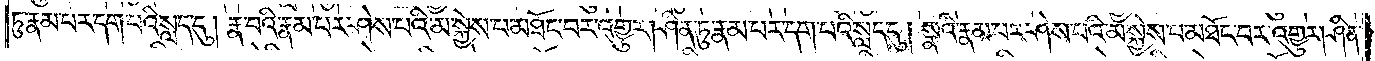ཏུ་རྣམ་པར་དག་པའི་སླད་དུ། རྣ་བའི་རྣམ་པར་ཤེས་པའི་མ་སྐྱེས་པ་མཐོང་བར་འགྱུར། ཤིན་ཏུ་རྣམ་པར་དག་པའི་སླད་དུ། སྣའི་རྣམ་པར་ཤེས་པའི་མ་སྐྱེས་པ་མཐོང་བར་འགྱུར། ཤིན་
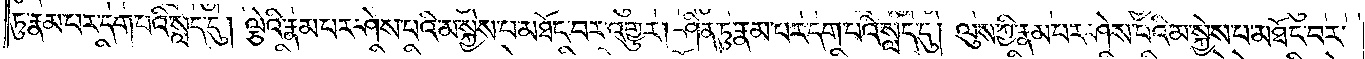ཏུ་རྣམ་པར་དག་པའི་སླད་དུ། ལྕེའི་རྣམ་པར་ཤེས་པའི་མ་སྐྱེས་པ་མཐོང་བར་འགྱུར། ཤིན་ཏུ་རྣམ་པར་དག་པའི་སླད་དུ། ལུས་ཀྱི་རྣམ་པར་ཤེས་པའི་མ་སྐྱེས་པ་མཐོང་བར་
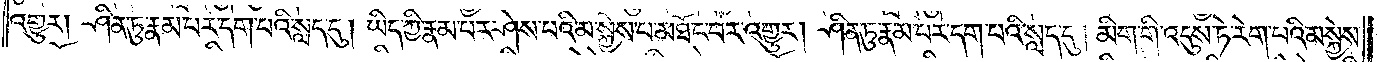འགྱུར། ཤིན་ཏུ་རྣམ་པར་དག་པའི་སླད་དུ། ཡིད་ཀྱི་རྣམ་པར་ཤེས་པའི་མ་སྐྱེས་པ་མཐོང་བར་འགྱུར། ཤིན་ཏུ་རྣམ་པར་དག་པའི་སླད་དུ། མིག་གི་འདུས་ཏེ་རེག་པའི་མ་སྐྱེས་
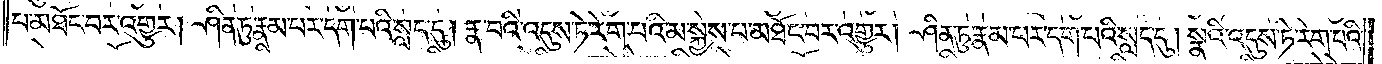པ་མཐོང་བར་འགྱུར། ཤིན་ཏུ་རྣམ་པར་དག་པའི་སླད་དུ། རྣ་བའི་འདུས་ཏེ་རེག་པའི་མ་སྐྱེས་པ་མཐོང་བར་འགྱུར། ཤིན་ཏུ་རྣམ་པར་དག་པའི་སླད་དུ། སྣའི་འདུས་ཏེ་རེག་པའི་
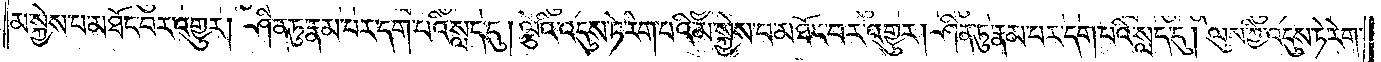མ་སྐྱེས་པ་མཐོང་བར་འགྱུར། ཤིན་ཏུ་རྣམ་པར་དག་པའི་སླད་དུ། ལྕེའི་འདུས་ཏེ་རེག་པའི་མ་སྐྱེས་པ་མཐོང་བར་འགྱུར། ཤིན་ཏུ་རྣམ་པར་དག་པའི་སླད་དུ། ལུས་ཀྱི་འདུས་ཏེ་རེག་
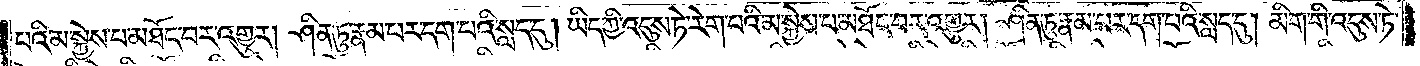པའི་མ་སྐྱེས་པ་མཐོང་བར་འགྱུར། ཤིན་ཏུ་རྣམ་པར་དག་པའི་སླད་དུ། ཡིད་ཀྱི་འདུས་ཏེ་རེག་པའི་མ་སྐྱེས་པ་མཐོང་བར་འགྱུར། ཤིན་ཏུ་རྣམ་པར་དག་པའི་སླད་དུ། མིག་གི་འདུས་ཏེ་
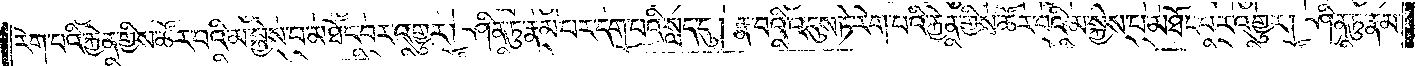རེག་པའི་རྐྱེན་གྱིས་ཚོར་བའི་མ་སྐྱེས་པ་མཐོང་བར་འགྱུར། ཤིན་ཏུ་རྣམ་པར་དག་པའི་སླད་དུ། རྣ་བའི་འདུས་ཏེ་རེག་པའི་རྐྱེན་གྱིས་ཚོར་བའི་མ་སྐྱེས་པ་མཐོང་བར་འགྱུར། ཤིན་ཏུ་རྣམ་
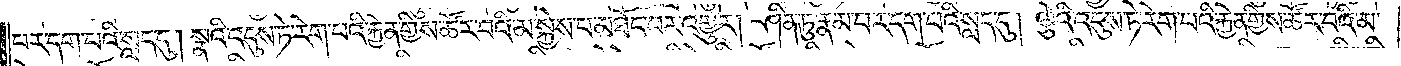པར་དག་པའི་སླད་དུ། སྣའི་འདུས་ཏེ་རེག་པའི་རྐྱེན་གྱིས་ཚོར་བའི་མ་སྐྱེས་པ་མཐོང་བར་འགྱུར། ཤིན་ཏུ་རྣམ་པར་དག་པའི་སླད་དུ། ལྕེའི་འདུས་ཏེ་རེག་པའི་རྐྱེན་གྱིས་ཚོར་བའི་མ་
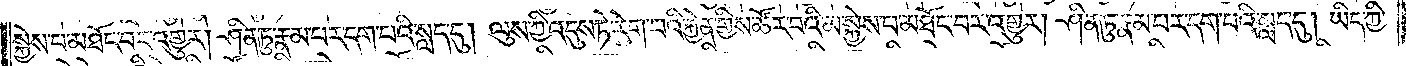སྐྱེས་པ་མཐོང་བར་འགྱུར། ཤིན་ཏུ་རྣམ་པར་དག་པའི་སླད་དུ། ལུས་ཀྱི་འདུས་ཏེ་རེག་པའི་རྐྱེན་གྱིས་ཚོར་བའི་མ་སྐྱེས་པ་མཐོང་བར་འགྱུར། ཤིན་ཏུ་རྣམ་པར་དག་པའི་སླད་དུ། ཡིད་ཀྱི་
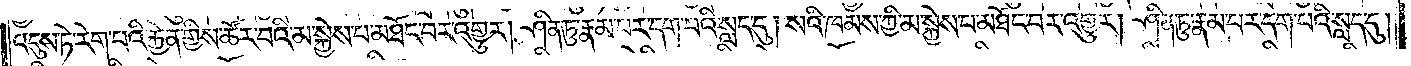འདུས་ཏེ་རེག་པའི་རྐྱེན་གྱིས་ཚོར་བའི་མ་སྐྱེས་པ་མཐོང་བར་འགྱུར། ཤིན་ཏུ་རྣམ་པར་དག་པའི་སླད་དུ། སའི་ཁམས་ཀྱི་མ་སྐྱེས་པ་མཐོང་བར་འགྱུར། ཤིན་ཏུ་རྣམ་པར་དག་པའི་སླད་དུ།
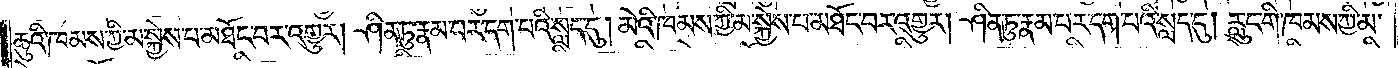ཆུའི་ཁམས་ཀྱི་མ་སྐྱེས་པ་མཐོང་བར་འགྱུར། ཤིན་ཏུ་རྣམ་པར་དག་པའི་སླད་དུ། མེའི་ཁམས་ཀྱི་མ་སྐྱེས་པ་མཐོང་བར་འགྱུར། ཤིན་ཏུ་རྣམ་པར་དག་པའི་སླད་དུ། རླུང་གི་ཁམས་ཀྱི་མ་
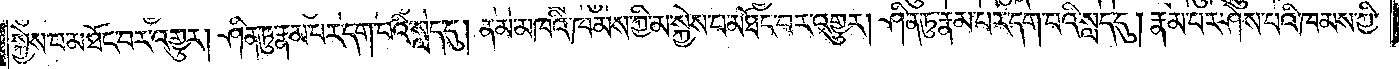སྐྱེས་པ་མཐོང་བར་འགྱུར། ཤིན་ཏུ་རྣམ་པར་དག་པའི་སླད་དུ། ནམ་མཁའི་ཁམས་ཀྱི་མ་སྐྱེས་པ་མཐོང་བར་འགྱུར། ཤིན་ཏུ་རྣམ་པར་དག་པའི་སླད་དུ། རྣམ་པར་ཤེས་པའི་ཁམས་ཀྱི་
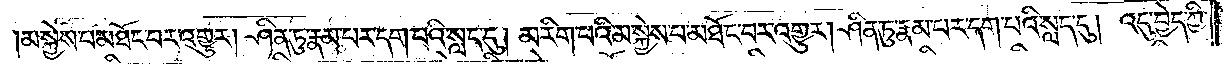མ་སྐྱེས་པ་མཐོང་བར་འགྱུར། ཤིན་ཏུ་རྣམ་པར་དག་པའི་སླད་དུ། མ་རིག་པའི་མ་སྐྱེས་པ་མཐོང་བར་འགྱུར། ཤིན་ཏུ་རྣམ་པར་དག་པའི་སླད་དུ། འདུ་བྱེད་ཀྱི་
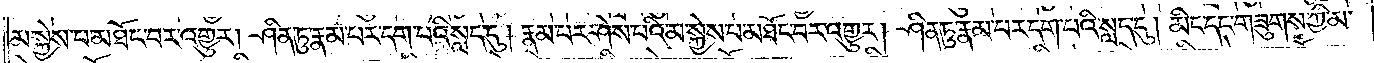མ་སྐྱེས་པ་མཐོང་བར་འགྱུར། ཤིན་ཏུ་རྣམ་པར་དག་པའི་སླད་དུ། རྣམ་པར་ཤེས་པའི་མ་སྐྱེས་པ་མཐོང་བར་འགྱུར། ཤིན་ཏུ་རྣམ་པར་དག་པའི་སླད་དུ། མིང་དང་གཟུགས་ཀྱི་མ་
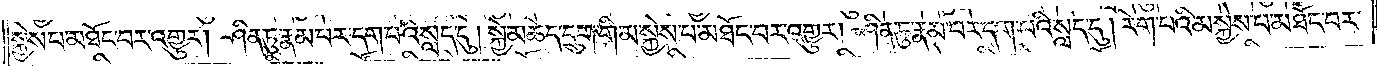སྐྱེས་པ་མཐོང་བར་འགྱུར། ཤིན་ཏུ་རྣམ་པར་དག་པའི་སླད་དུ། སྐྱེ་མཆེད་དྲུག་གི་མ་སྐྱེས་པ་མཐོང་བར་འགྱུར། ཤིན་ཏུ་རྣམ་པར་དག་པའི་སླད་དུ། རེག་པའི་མ་སྐྱེས་པ་མཐོང་བར་
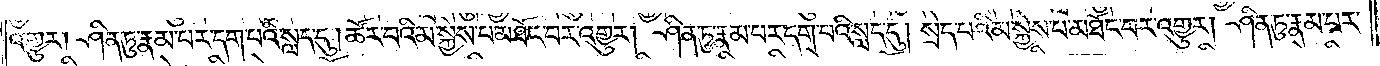འགྱུར༏ ཤིན་ཏུ་རྣམ་པར་དག་པའི་སླད་དུ། ཚོར་བའི་མ་སྐྱེས་པ་མཐོང་བར་འགྱུར། ཤིན་ཏུ་རྣམ་པར་དག་པའི་སླད་དུ། སྲེད་པའི་མ་སྐྱེས་པ་མཐོང་བར་འགྱུར། ཤིན་ཏུ་རྣམ་པར་
